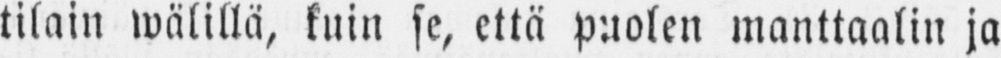tilain wälillä, kuin se, että puolen manttaalin ja
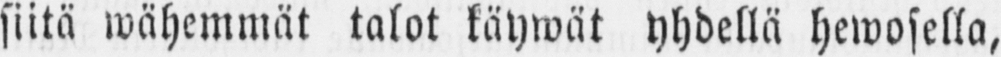siitä wähemmät talot käywät yhdellä hewosella,
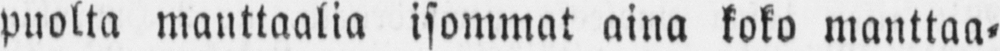puolta manttaalia isommat aina koko manttaa-
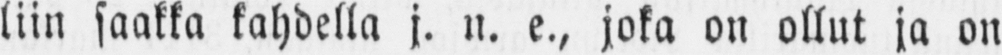liin saakka kahdella j. n. e., joka on ollut ja on
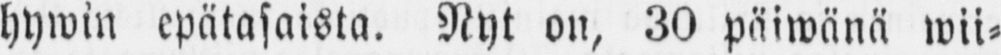hywin epätasaista. Nyt on, 30 päiwänä wii-
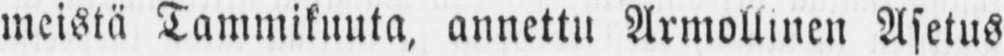meistä Tammikuuta, annettu Armollinen Asetus
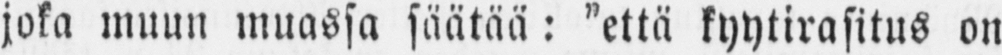joka muun muassa säätää: ”että kyytirasitus on
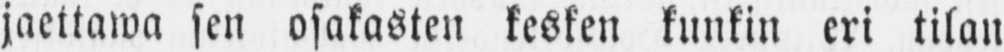jaettawa sen osakasten kesken kunkin eri tilan
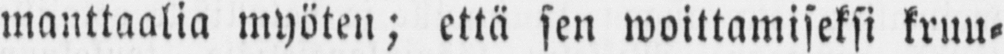manttaalia myöten; että sen woittamiseksi kruu-
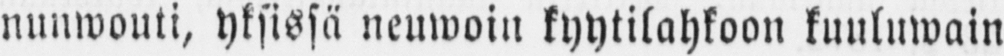nunwouti, yksissä neuwoin kyytilahkoon kuuluwain
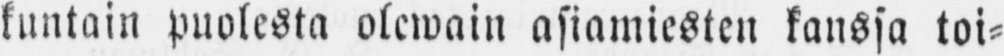kuntain puolesta olewani asiamiesten kanssa toi-
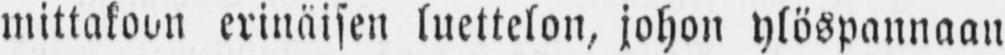mittakoon erinäisen luettelon, johon ylöspannaan
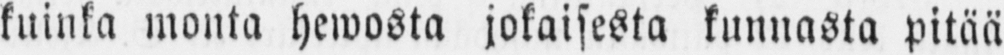kuinka monta hewosta jokaisesta kunnasta pitää
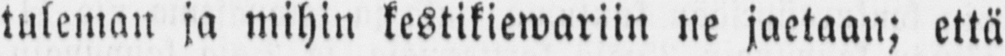tuleman ja mihin kestikiewariin ne jaetaan; että
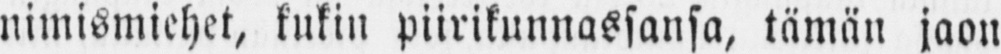nimismiehet, kukin piirikunnassansa, tämän jaon
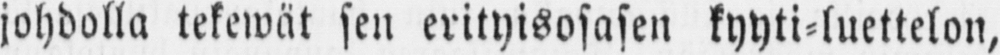johdolla tekewät sen erityisosasen kyyti-luettelon,
